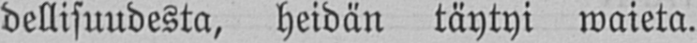dellisuudesta, heidän täytyi waieta.
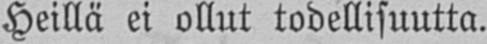Heillä ei ollut todellisuutta.
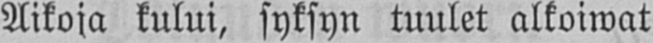Aikoja kului, syksyn tuulet alkoiwat
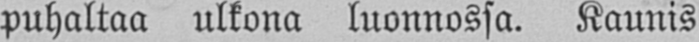puhaltaa ulkona luonnossa. Kaunis
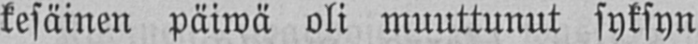kesäinen päiwä oli muuttunut syksyn
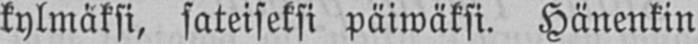kylmäksi, sateiseksi päiwäksi. Hänenkin
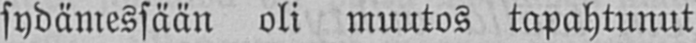sydämessään oli muutos tapahtunut
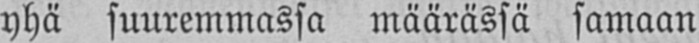yhä suuremmassa määrässä samaan
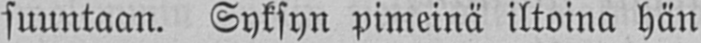suuntaan. Syksyn pimeinä iltoina hän
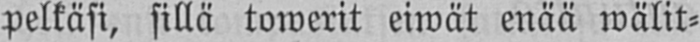pelkäsi, sillä towerit eiwät enää wälit-
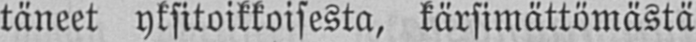täneet yksitoikkoisesta, kärsimättömästä
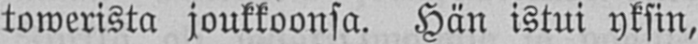towerista joukkoonsa. Hän istui yksin,
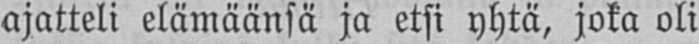ajatteli elämäänsä ja etsi yhtä, joka oli
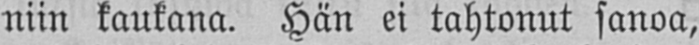niin kaukana. Hän ei tahtonut sanoa,
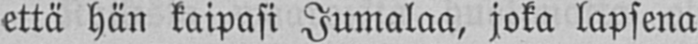että hän kaipasi Jumalaa, joka lapsena
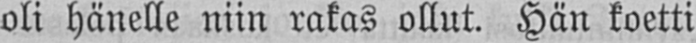oli hänelle niin rakas ollut. Hän koetti
